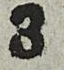3
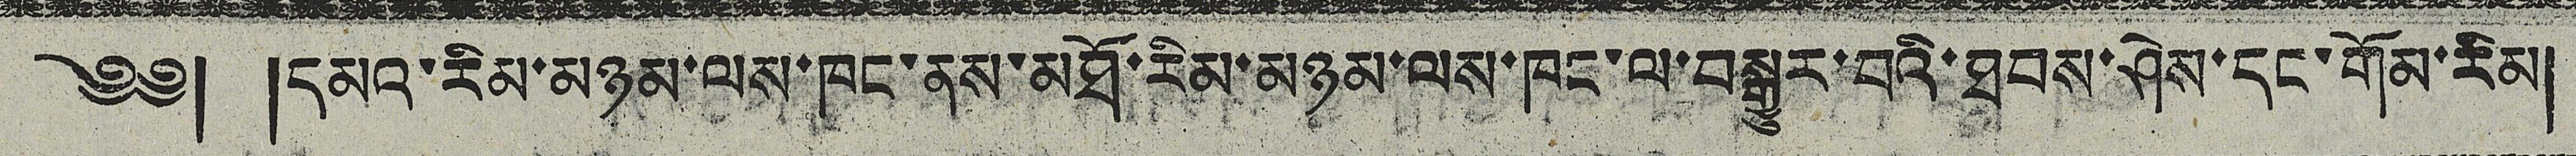༄༅། །དམའ་རིམ་མཉམ་ལས་ཁང་ནས་མཐོ་རིམ་མཉམ་ལས་ཁང་ལ་བསྒྱུར་བའི་ཐབས་ཤེས་དང་གོམ་རིམ།
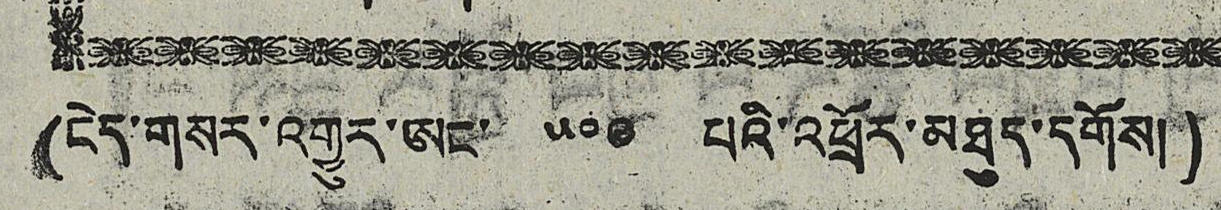(ངེད་གསར་འགྱུར་ཨང་ ༥༠༩ པའི་འཕྲོར་མཐུད་དགོས།)
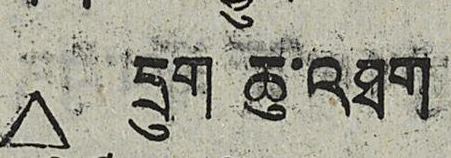△ དྲུག ཆུ་འཐག
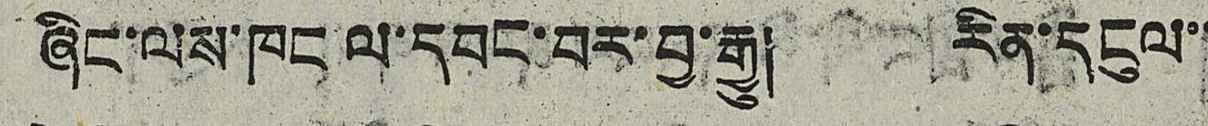ཞིང་ལས་ཁང་ལ་དབང་བར་བྱ་རྒྱུ། རིན་དངུལ་
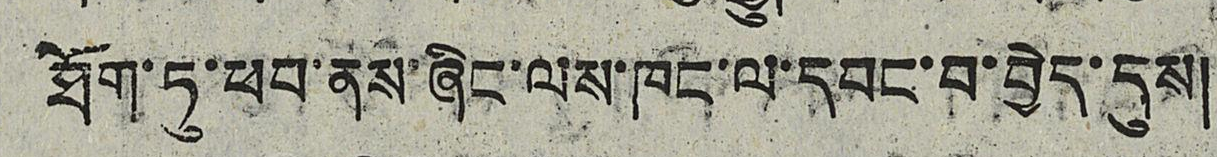ཐོག་ཏུ་ཕབ་ནས་ཞིང་ལས་ཁང་ལ་དབང་བ་བྱེད་དུས།
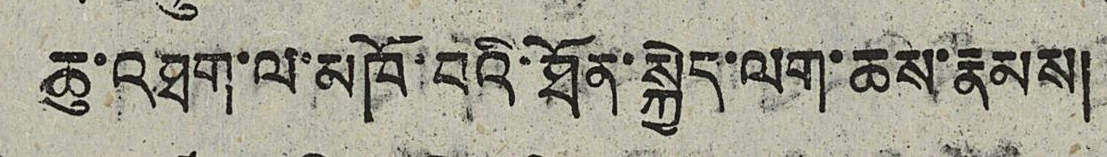ཆུ་འཐག་ལ་མཁོ་བའི་ཐོན་སྐྱེད་ལག་ཆས་རྣམས།
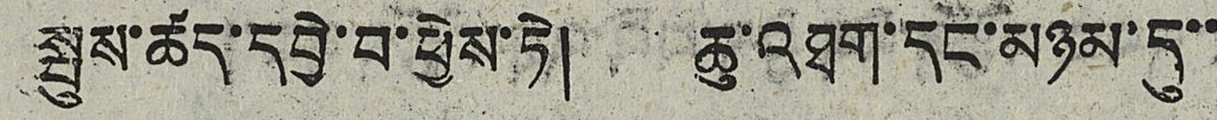སྤུས་ཚད་དབྱེ་བ་ཕྱེས་ཏེ། ཆུ་འཐག་དངོ་མཉམ་དུ་་
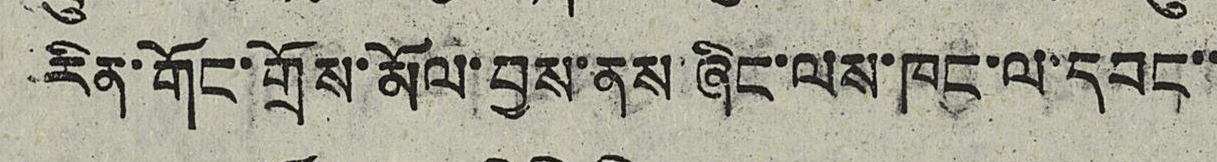རིན་གོང་གྲོས་མོལ་བྱས་ནས་ཞིང་ལས་ཁང་ལ་དབང་་
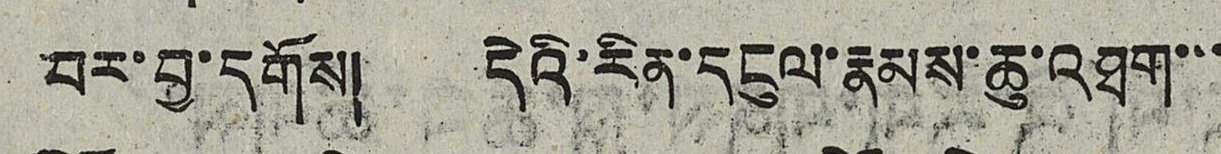བར་བྱ་དགོས། དེའི་རིན་དངུལ་རྣམས་ཆུ་འཐག་་་
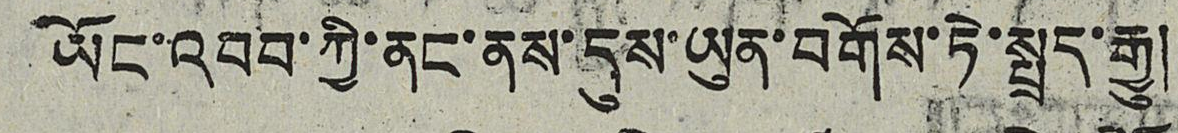ཡོང་འབབ་ཀྱི་ནང་ནས་དུས་ཡུན་བགོས་ཏེ་སྤྲད་རྒྱུ།
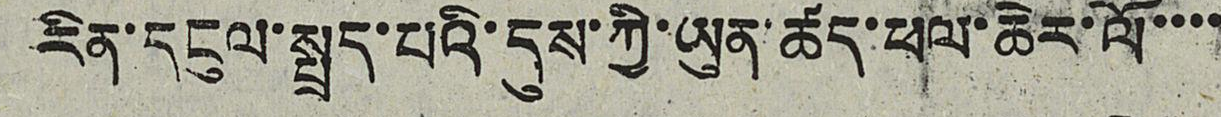རིན་དངུལ་སྤྲད་པའི་དུས་ཀྱི་ཡུན་ཚད་ཕལ་ཆེར་ལོ་་་་
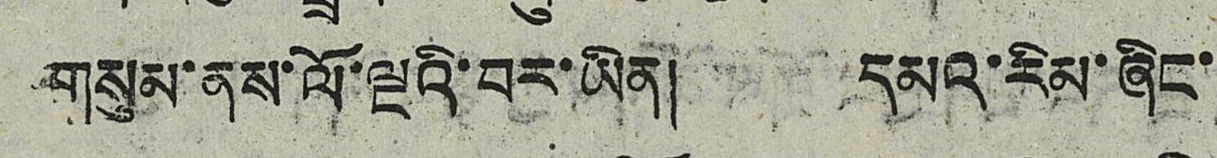གསུམ་ནས་ལོ་ལྔའི་བར་ཡིན། དམའ་རིམ་ཞིང་་
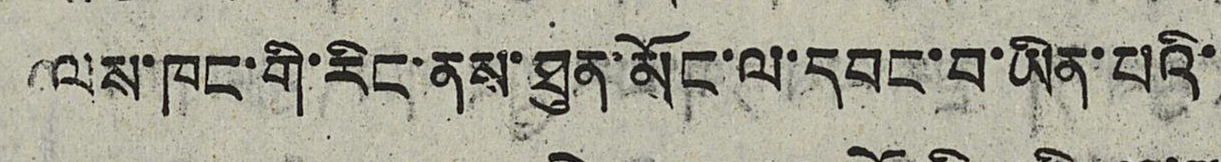ལས་ཁང་གི་རིང་ནས་ཐུན་མོང་ལ་དབང་བ་ཡིན་པའི་་
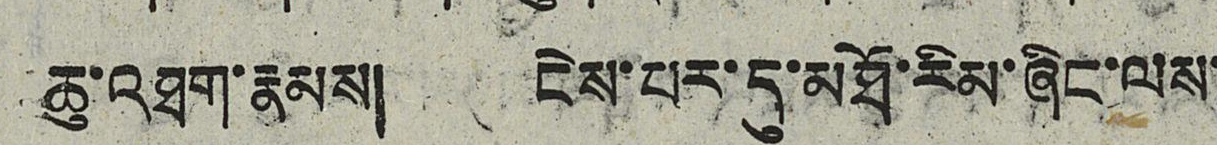ཆུ་འཐག་རྣམས། ངེས་པར་དུ་མཐོ་རིམ་ཞིང་ལས་
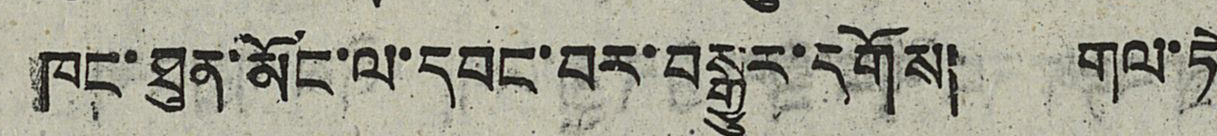ཁང་ཐུན་མོང་ལ་དབང་བར་བསྒྱུར་དགོས། གལ་ཏེ
